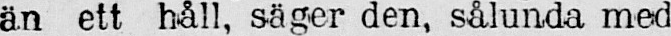än ett håll, säger den, sålunda med
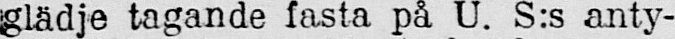glädje tagande fasta på U. S:s anty-
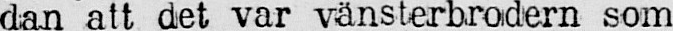dan att det var vänsterbrodern som
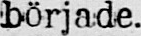började.
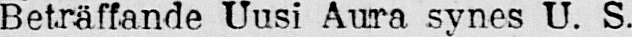Beträffande Uusi Aura synes U. S.
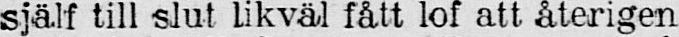själf till slut likväl fått lof att återigen
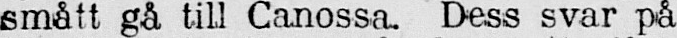smått gå till Canossa. Dess svar på
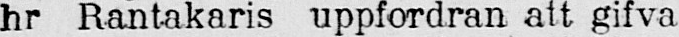hr Rantakaris uppfordran att gifva
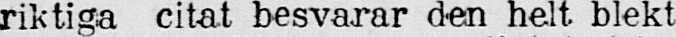riktiga citat besvarar den helt blekt
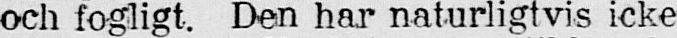och fogligt. Den har naturligtvis icke
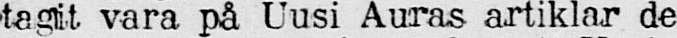tagit vara på Uusi Auras artiklar de
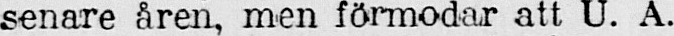senare åren, men förmodar att U. A.
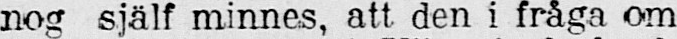nog själf minnes, att den i fråga om
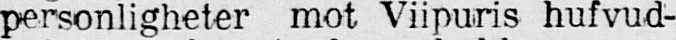personligheter mot Viipuris hufvud-
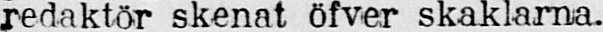redaktör skenat öfver skaklarna.
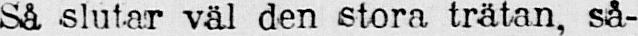Så slutar väl den stora trätan, så-
